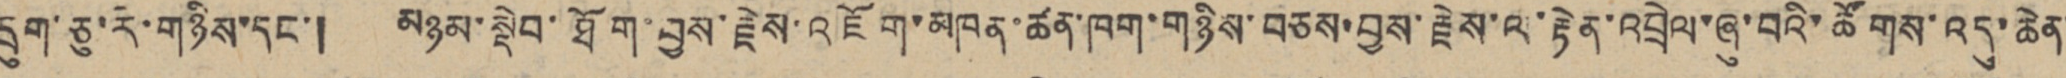དྲུག་ཅུ་རེ་གཉིས་དང་། མཉམ་སྡེབ་ཐོག་བྱས་རྗེས་འཇོག་མཁན་ཚན་ཁག་གཉིས་བཅས་བྱས་རྗེས་ལ་རྟེན་འབྲེལ་ཞུ་བའི་ཚོགས་འདུ་ཆེན་
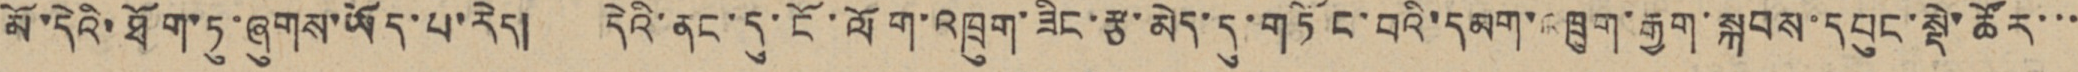མོ་དེའི་ཐོག་ཏུ་ཞུགས་ཡོད་པ་རེད། དེའི་ནང་དུ་ངོ་ལོག་འཁྲུག་ཟིང་རྩ་མེད་དུ་གཏོང་བའི་དམག་འཁྲུག་རྒྱག་སྐབས་དཔུང་སྡེ་ཚོར་་་
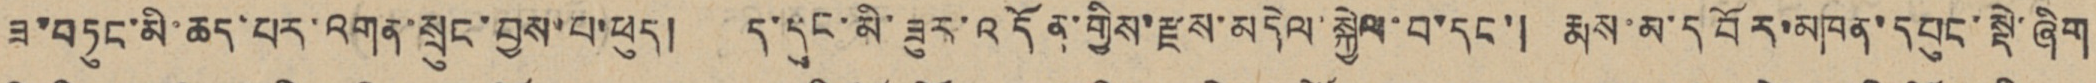ཟ་བཏུང་མི་ཆད་པར་འགན་སྲུང་བྱས་པ་ཕུད། ད་དུང་མི་ཟུར་འདོན་གྱིས་རྫས་མདེལ་སྐྱེལ་བ་དང་། རྨས་མ་དབོར་མཁན་དཔུང་སྡེ་ཞིག
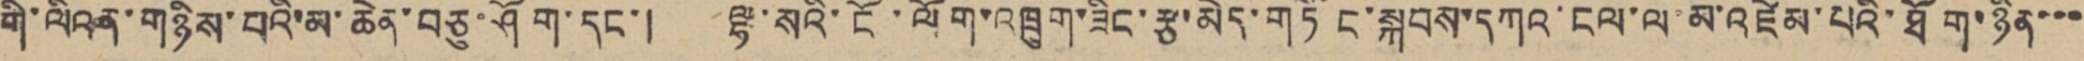གི་ལིའན་གཉིས་པའི་མ་ཆེན་བཅུ་ཤོག་དང་། ལྷ་སའི་ངོ་ལོག་འཁྲུག་ཟིང་རྩ་མེད་གཏོང་སྐབས་དཀའ་ངལ་ལ་མ་འཛེམ་པའི་ཐོག་ཉིན་་་
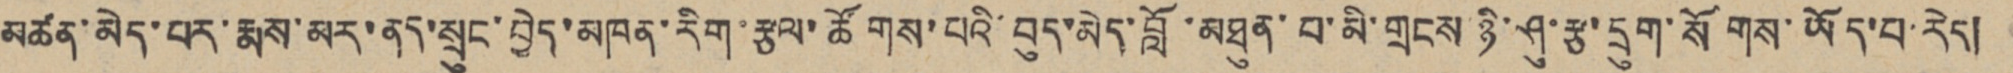མཚན་མེད་པར་རྨས་མར་ནད་སྲུང་བྱེད་མཁན་རིག་རྩལ་ཚོགས་པའི་བུད་མེད་བློ་མཐུན་པ་མི་གྲངས་ཉི་ཤུ་རྩ་དྲུག་སོགས་ཡོད་པ་རེད།
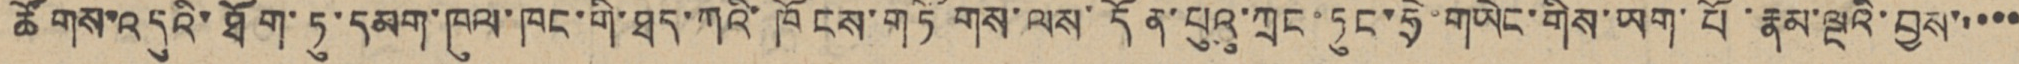ཚོགས་འདུའི་ཐོག་ཏུ་དམག་ཁུལ་ཁང་གི་ཐད་ཀའི་ཁོངས་གཏོགས་ལས་དོན་པུའུ་ཀྲང་ཏུང་ཧྲེ་གཡེང་གིས་ཡག་པོ་རྣམ་ལྔའི་བྱས་་་་་
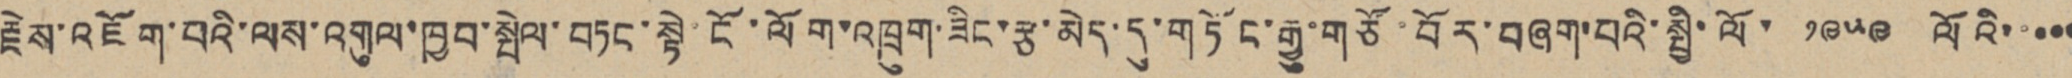རྗེས་འཇོག་པའི་ལས་འགུལ་ཁྱབ་སྤེལ་བཏང་སྟེ་ངོ་ལོག་འཁྲུག་ཟིང་རྩ་མེད་དུ་གཏོང་རྒྱུ་གཙོ་བོར་བཞག་པའི་སྤྱི་ལོ་ ༡༩༥༩ ལོའི་་་་་
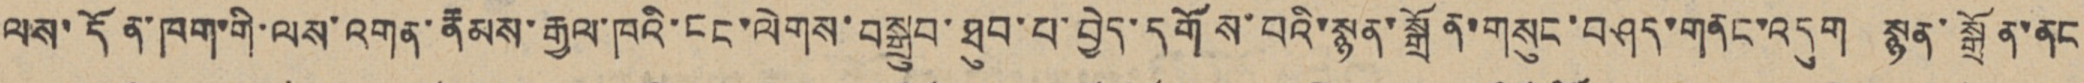ལས་དོན་ཁག་གི་ལས་འགན་རྣམས་རྒྱལ་ཁའི་ངང་ལེགས་བསྒྲུབ་ཐུབ་པ་བྱེད་དགོས་པའི་སྙན་སྒྲོན་གསུང་བཤད་གནང་འདུག སྙན་སྒྲོན་ནང
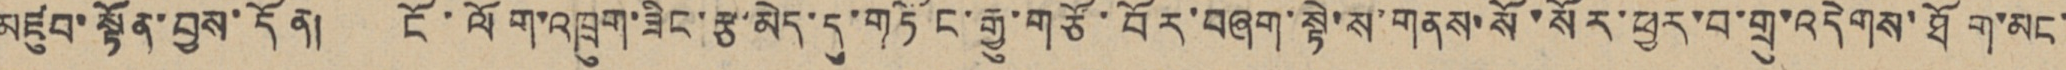མཛུབ་སྟོན་བྱས་དོན། ངོ་ལོག་འཁྲུག་ཟིང་རྩ་མེད་དུ་གཏོང་རྒྱུ་གཙོ་བོར་བཞག་སྟེ་ས་གནས་སོ་སོར་ཕྱར་བ་གྲུ་འདེགས་ཐོག་མང་
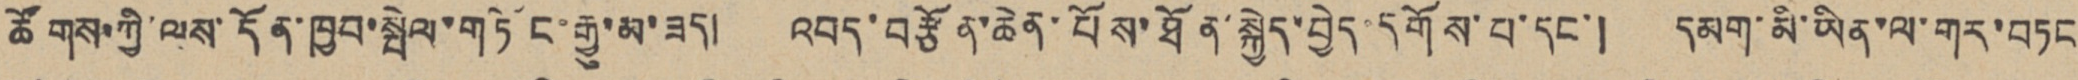ཚོགས་ཀྱི་ལས་དོན་ཁྱབ་སྤེལ་གཏོང་རྒྱུ་མ་ཟད། འབད་བརྩོན་ཆེན་པོས་ཐོན་སྐྱེད་བྱེད་དགོས་པ་དང་། དམག་མི་ཡིན་ལ་གར་བཏང
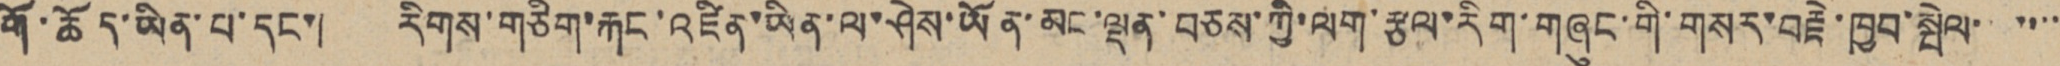གོ་ཆོད་ཡིན་པ་དང་། རིགས་གཅིག་རྐང་འཛིན་ཡིན་ལ་ཤེས་ཡོན་མང་ལྡན་བཅས་ཀྱི་ལག་རྩལ་རིག་གཞུང་གི་གསར་བརྗེ་ཁྱེབ་སྤེལ་་་་་་་་
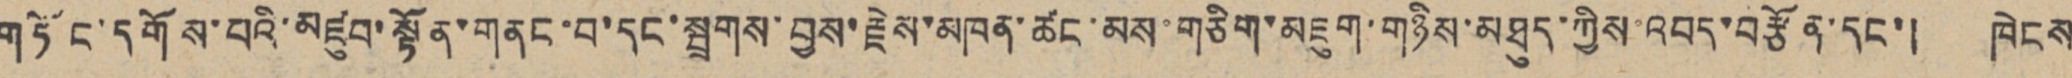གཏོང་དགོས་པའི་མཛུབ་སྟོན་གནང་བ་དང་སྦྲགས་བྱས་རྗེས་མཁན་ཚང་མས་གཅིག་མཇུག་གཉིས་མཐུད་ཀྱིས་འབད་བརྩོན་དང་། ཁེངས
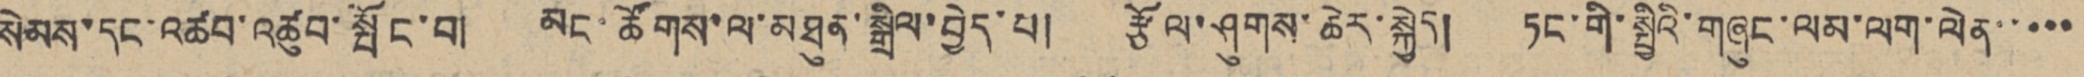སེམས་དང་འཚབ་འཚུབ་སྤོང་བ། མང་ཚོགས་ལ་མཐུན་སྒྲིལ་བྱེད་པ། རྩོལ་ཤུགས་ཆེར་སྐྱེད། ཏང་གི་སྤྱིའི་གཞུང་ལམ་ལག་ལེན་་་་་
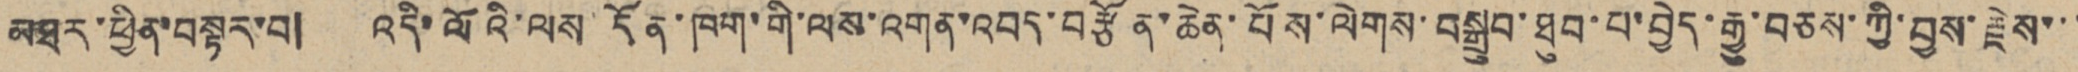མཐར་ཕྱིན་བསྟར་བ། འདི་ལོའི་ལས་དོན་ཁག་གི་ལས་འགན་འབད་བརྩོན་ཆེན་པོས་ལེགས་བསྒྲུབ་ཐུབ་པ་བྱེད་རྒྱུ་བཅས་ཀྱི་བྱས་རྗེས་་་
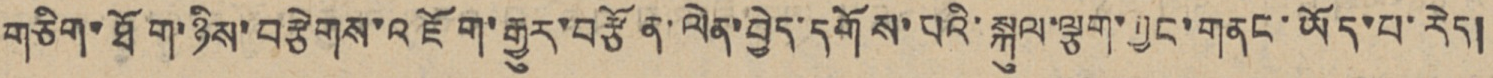གཅིག་ཐོག་ཉིས་བརྩེགས་འཇོག་རྒྱུར་བརྩོན་ལེན་བྱེད་དགོས་པའི་སྐུལ་ལྕག་ཀྱང་གནང་ཡོད་པ་རེད།
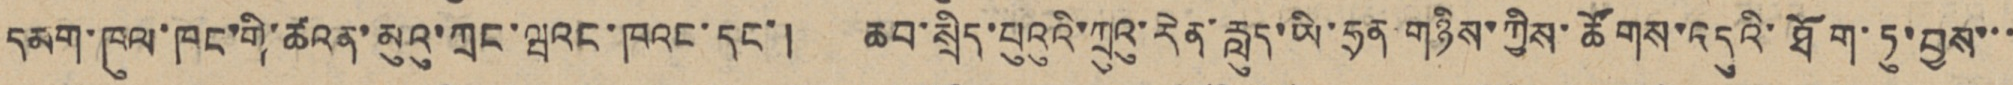དམག་ཁུལ་ཁང་གི་ཚའན་མུའུ་ཀྲང་ཝའང་ཁའང་དང་། ཆབ་སྲིད་པུའུའི་ཀྲུའུ་རེན་རླུད་ཡི་ཧྲན་གཉིས་ཀྱིས་ཚོགས་འདུའི་ཐོག་ཏུ་བྱས་་་
